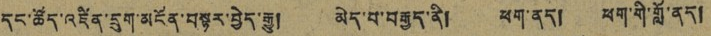དང་ཚོད་འཛིན་དྲུག་མངོན་བསྟར་བྱེད་རྒྱུ། མེད་པ་བརྒྱད་ནི། ཕག་ནད། ཕག་གི་གློ་ནད།
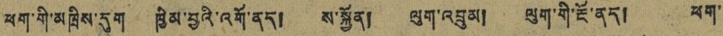ཕག་གི་མཁྲིས་དུག ཁྱིམ་བྱའི་འགོ་ནད། ས་སྐྱོན། ལུག་འབྲུམ། ལུག་གི་རྔོ་ནད། ཕག་
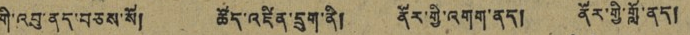གི་འབུ་ནད་བཅས་སོ། ཚོད་འཛིན་དྲུག་ནི། ནོར་གྱི་འགག་ནད། ནོར་གྱི་གློ་ནད།
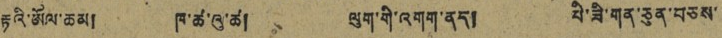རྟའི་ཨོལ་ཆམ། ཁ་ཚ་འུ་ཚ། ལུག་གི་འགག་ནད། བི་ཟི་གན་ཅུན་བཅས་
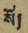སོ།
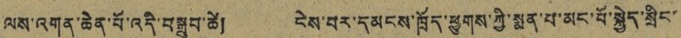ལས་འགན་ཆེན་པོ་འདི་བསྒྲུབ་ཚེ། ངེས་པར་དམངས་ཁྲོད་ཕྱུགས་ཀྱི་སྨན་པ་མང་པོ་སྐྱེད་སྲིང་
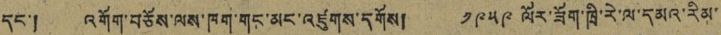དང་། འགོག་བཅོས་ལས་ཁག་གང་མང་འཛུགས་དགོས། ༡༩༥༩ ལོར་ཟོག་ཁྲི་རེ་ལ་དམའ་རིམ་
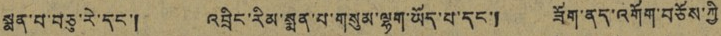སྨན་པ་བཅུ་རེ་དང་། འབྲིང་རིམ་སྨན་པ་གསུམ་ལྷག་ཡོད་པ་དང་། ཟོག་ནད་འགོག་བཅོས་ཀྱི
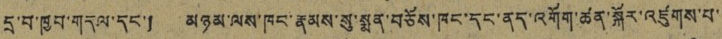དྲ་བ་ཁྱབ་གདལ་དང་། མཉམ་ལས་ཁང་རྣམས་སུ་སྨན་བཅོས་ཁང་དང་ནད་འགོག་ཚན་སྐོར་འཛུགས་པ་
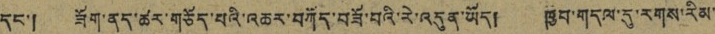དང་། ཟོག་ནད་ཚར་གོད་པའི་འཆར་བཀོད་བཟོ་བའི་རེ་འདུན་ཡོད། ཁྱབ་གདལ་དུ་རགས་རིམ་
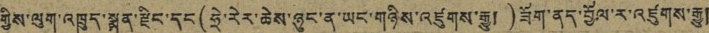གྱིས་ལུག་འཁྲུད་སྨན་རྫིང་དང(ཧྲེ་རེར་ཆེས་ཉུང་ན་ཡང་གཉིས་འཛུགས་རྒྱུ།)ཟོག་ནད་བྱོལ་ར་འཛུགས་རྒྱུ།
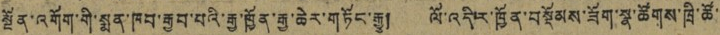སྔོན་འགོག་གི་སྨན་ཁབ་རྒྱབ་པའི་རྒྱ་ཁྱོན་རྒྱ་ཆེར་གཏོང་རྒྱུ། ལོ་འདིར་ཁྱོན་བསྡོམས་ཟོག་སྣ་ཚོགས་ཁྲི་ཚོ་
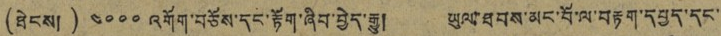(ཐེངས།) ༤༠༠༠ འགོག་བཅོས་དང་རྟོག་ཞིབ་བྱེད་རྒྱུ། ཡུལ་ཐབས་མང་པོ་ལ་བརྟག་དཔྱད་དང་
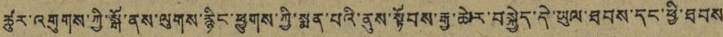ཚུར་འགུགས་ཀྱི་སྒོ་ནས་ལུགས་རྙིང་ཕྱུགས་ཀྱི་སྨན་པའི་ནུས་སྟོབས་རྒྱ་ཆེར་བསྐྱེད་དེ་ཡུལ་ཐབས་དང་ཕྱི་ཐབས
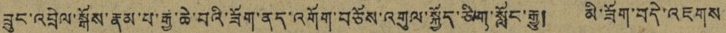ཟུང་འབྲེལ་སྒོས་རྣམ་པ་རྒྱ་ཆེ་བའི་ཟོག་ནད་འགོག་བཅོས་འགུལ་སྐྱོད་ཅིག་སློང་རྒྱུ། མི་ཟོག་བདེ་འཇགས
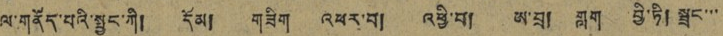ལ་གནོད་པའི་སྦྱང་ཀི། དོམ། གཟིག འཕར་བ། འཕྱི་བ། ཨ་བྲ། གླག བྱི་ཏི། སྦྲང་་་
